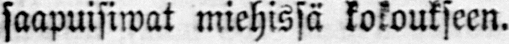saapuisiwat miehissä kokoukseen.
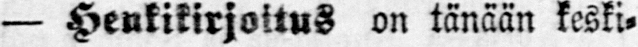— Henkikirjoitus on tänään keski-
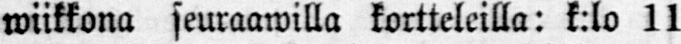wiikkona seuraawilla kortteleilla: k:lo 11
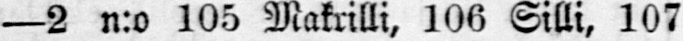—2 n:o 105 Makrilli, 106 Silli, 107
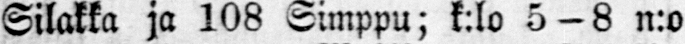Silakka ja 108 Simppu; k:lo 5-8 n:o
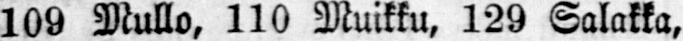109 Mullo, 110 Muikku, 129 Salakka,
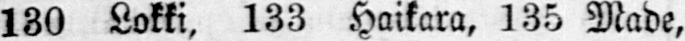130 Lokki. 133 Haikara, 135 Made,
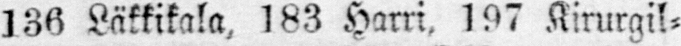136 Läkkikala, 183 Harri, 197 Kirurgil-
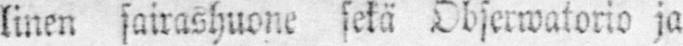linen sairashuone sekä Obserwatorio ja
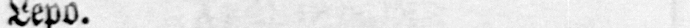Lepo.
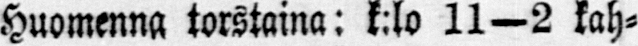Huomenna torstaina: k:lo 11—2 kah-
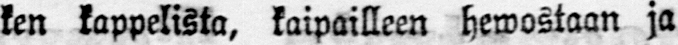ken kappelista, kaipailleen hewostaan ja
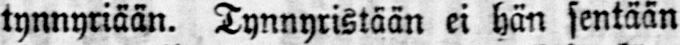tynnyriään. Tynnyristään ei hän sentään
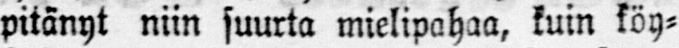pitänyt niin suurta mielipahaa, kuin köy-
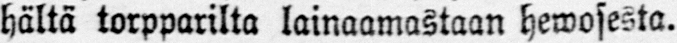hältä torpparilta lainaamastaan hewosesta.
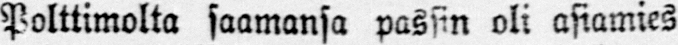Polttimolta saamansa passin oli asiamies
